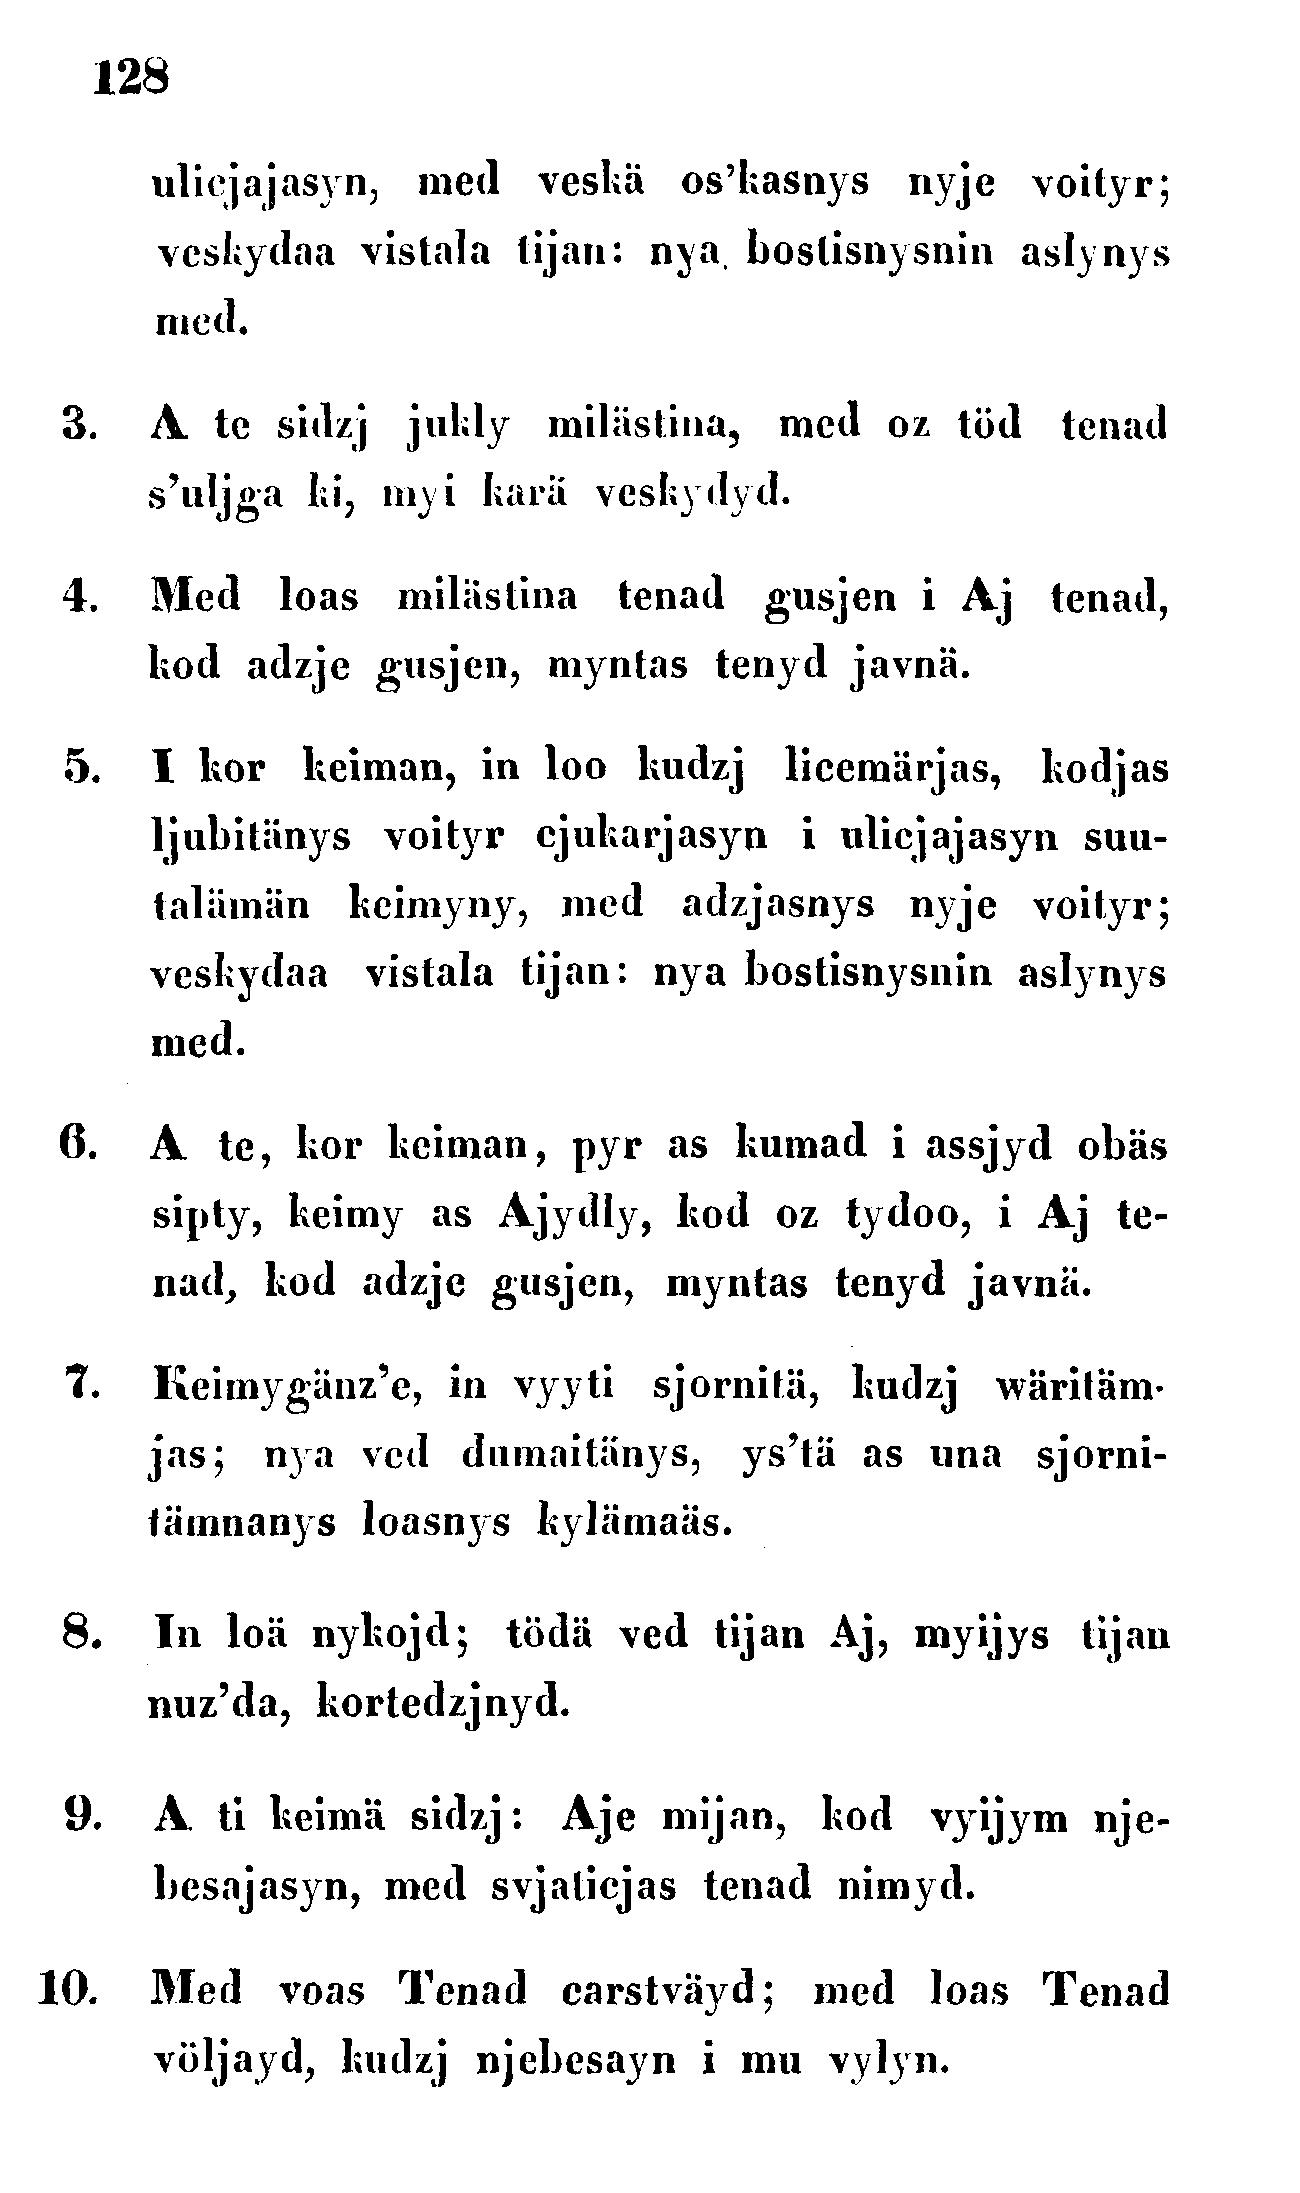128
ulicjajasyn, med veskä os'kasnys nyje voityr;
veskydaa vistala tijan: nya bostisnysnin aslynys
med.
3. A te sidzj jukly milästina, med oz töd tenad
s'uljga ki, myi karä veskydyd.
4. Med loas milästina tenad gusjen i Aj tenad,
kod adzje gusjen, myntas tenyd javnä.
5. I kor keiman, in loo kudzj licemärjas, kodjas
ljubitänys voityr cjukarjasyn i ulicjajasyn suu-
talämän keimyny, med adzjasnys nyje voityr;
veskydaa vistala tijan: nya bostisnysnin aslynys
med.
6. A te, kor keiman, pyr as kumad i assjyd obäs
sipty, keimy as Ajydly, kod oz tydoo, i Aj te-
nad, kod adzje gusjen, myntas tenyd javnä.
7. Keimygänz'e, in vyyti sjornitä, kudzj wäritäm-
jas; nya ved dumaitänys, ys'tä as una sjorni-
tämnanys loasnys kylämaäs.
8. In loä nykojd; tödä ved tijan Aj, myijys tijan
nuz'da, kortedzjnyd.
9. A ti keimä sidzj: Aje mijan, kod vyijym nje-
besajasyn, med svjaticjas tenad nimyd.
10. Med voas Tenad carstväyd; med loas Tenad
völjayd, kudzj njebesayn i mu vylyn.
